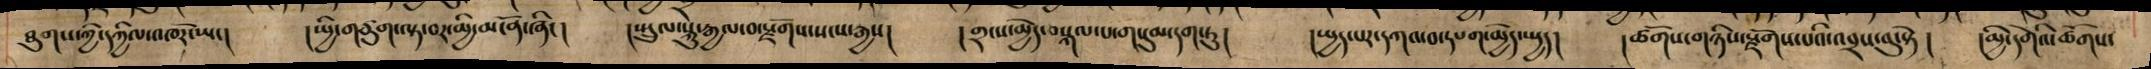ཐུགས་ཀྱི་དཀྱིལ་འཁོར་ཡང། །སྤྱི་གཙུག་ལྟ་བར་མྱི་མངོན་ཞིང། །སྤྲུལ་སྐུ་རྒྱལ་བ་སྫོགས་སངས་རྒྱས། །གྲངས་མྱེད་བསྐལ་པ་གསུམ་དག་ཏུ། །སྤྱད་པར་དཀའ་བ་དཔག་མྱེད་སྤྱད། །ཚོགས་གཉིས་སྫོགས་པའི་འབྲས་བུ་སྟེ། །མྱི་དགེའི་ཚོགས་
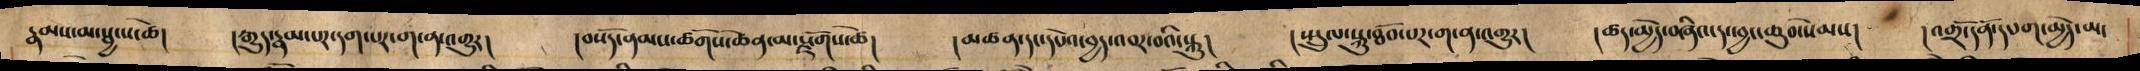རྣམས་མ་སྦྱངས་ཚེ། །རྒྱུད་རྣམ་པར་དག་པར་ག་ན་འགྱུར། །བསོད་ནམས་ཚོགས་ཆེན་མ་སྫོགས་ཚེ། །མཚན་དང་དཔེའ་བྱད་འབར་བའི་སྐུ། །སྤྲུལ་སྐུ་ཐོབ་པར་ག་ན་འགྱུར། །ཚད་མྱེད་བཞིའ་དང་བྱང་ཆུབ་སེམས། །འགྲོ་དོན་དཔག་མྱེད་མ་
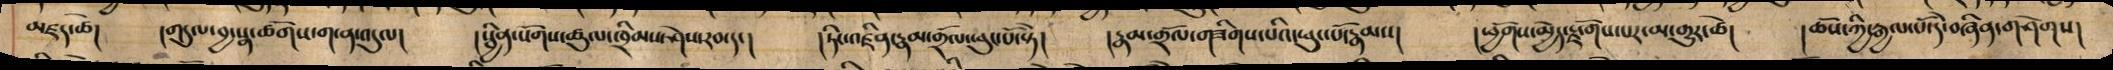མཛད་ཚེ། །གདུལ་བྱ་སྣ་ཚོགས་ག་ན་འདུལ། །སྦྱིན་སོགས་ཚུལ་ཁྲིམས་ཤེས་རབ་དང། །ཏིང་འཛིན་རྣམ་གྲོལ་ཕུང་པོ་སྟེ། །རྣམ་གྲོལ་གཟིགས་པའི་ཕུང་པོ་རྣམས། །ཕྱོགས་མྱེད་སྡོགས་པར་མ་གྱུར་ཚེ། །ཆོས་ཀྱི་རྒྱལ་པོ་དེ་བཞིན་གཤེགས།
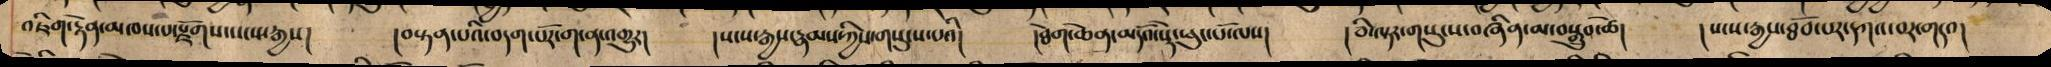འཇིག་རྟེན་མཁས་པ་སྫོགས་སངས་རྒྱས། །བསྟན་པའི་བདག་པོར་ག་ན་འགྱུར། །སངས་རྒྱས་རྣམས་ཀྱིས་གསུངས་པའི། །ཐེག་ཆེན་མདོའ་སྡེ་ཕུང་པོ་ལས། །ཅི་ལྟར་གསུངས་བཞཱིན་མ་བསྒྲུབ་ཚེ། །སངས་རྒྱས་ཐོབ་པར་དཀའ་བར་གདའ།
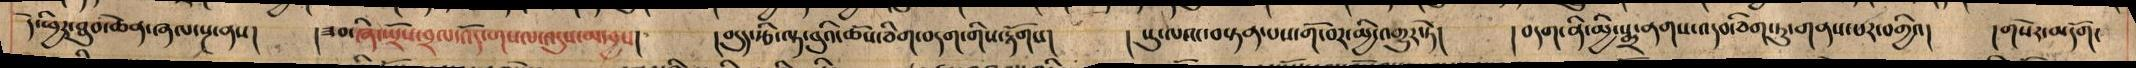དེ་ཕྱིར་ཐུབ་ཆེན་ཞལ་སྔ་ནས། །ཟབ་ཞི་སྤྲོས་བྲལ་འོད་གསལ་འདུས་མ་བྱས། །བདུད་རྩི་ལྟ་བུའི་ཆོས་ཅིག་བདག་གིས་རྟོགས། །སུ་ལའང་བསྟན་པས་གོ་བར་མྱི་འགྱུར་ཏེ། །བདག་ནི་མྱི་སྨྲ་ནགས་འདས་ཅིག་ཏུ་གནས་པར་བགྱིའ། །གསེར་མདོག་
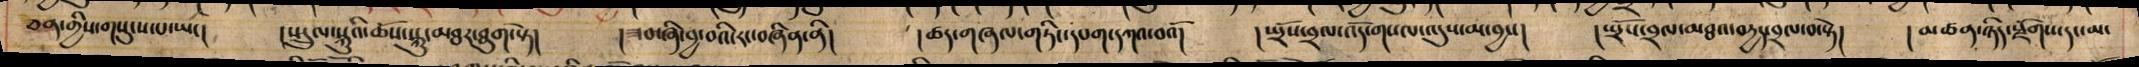ཅན་གྱིས་གསུངས་པ་ཡང། །སྤྲུལ་སྐུའི་ཆོས་སྐུ་མཐར་ཐུག་སྟེ། །ཟབ་ཞི་བྱ་བའི་རང་བཞིན་ནི། །ཚད་གཞལ་གཏིང་དཔག་དཀའ་བའོ། །སྤྲོས་བྲལ་འོད་གསལ་འདུས་མ་བྱས། །སྤྲོས་བྲལ་མཐའ་བརྱད་བྲལ་བ་སྟེ། །མཚན་ཉིད་སྫོགས་དང་མ་
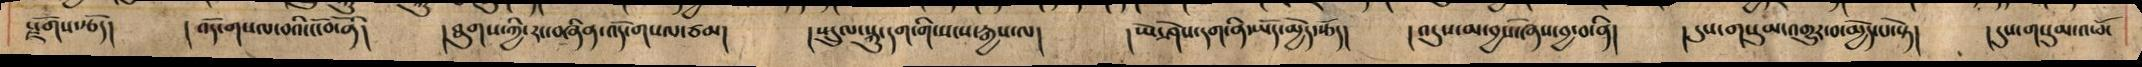སྫོགས་རྩོད། །འོད་གསལ་བའི་ངོ་བོ་ནི། །ཐུགས་ཀྱི་རང་བཞིན་འོད་གསལ་ཙམ། །སྤྲུལ་སྐུ་དག་གི་སངས་རྒྱས་ལ། །ཡེ་ཤེས་དག་ནི་ཡོད་མྱེད་རྩོད། །འདུས་མ་བྱས་ཞེས་བྱ་བ་ནི། །དུས་གསུམ་འགྱུར་བ་མྱེད་པ་སྟེ། །དུས་གསུམ་འཕོ་
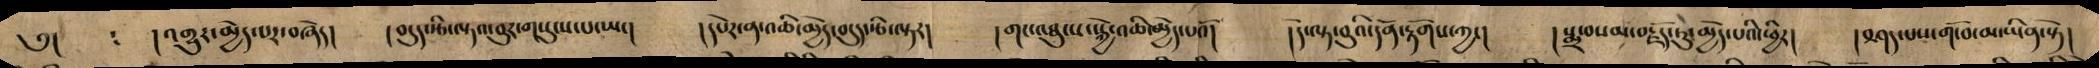༅། །འགྱུར་མྱེད་པར་བཞེད། །བདུད་རྩི་ལྟའ་བུར་གསུངས་པ་ཡང། །དཔེར་ན་འཆི་མྱེད་བདུད་རྩི་ལྟར། །གང་འཐུངས་སྐྱེ་འཆི་མྱེད་པའོ། །དེ་ལྟ་བུའི་དོན་རྟོགས་ཀྱང། །སྨྲ་བསམ་བརྗོད་ཏུ་མྱེད་པའི་ཕྱིར། །བཤད་པས་གོ་བ་མ་ཡིན་སྟེ།
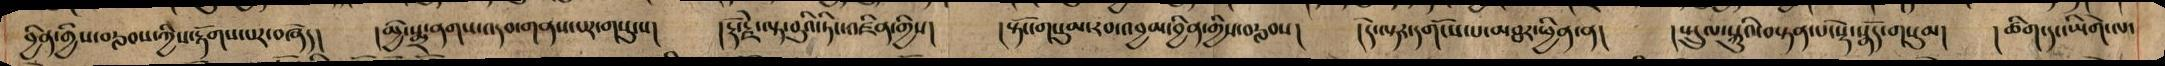བྱིན་གྱིས་བརླབས་ཀྱིས་རྟོགས་པར་བཞེད། །མྱི་སྨྲ་ནགས་འདབ་གནས་པར་གསུངས། །རྡོ་རྗེ་ལྟ་བུའི་ཏིང་འཛིན་གྱིས། །སྟོང་གསུམ་རབ་འབྱམ་བྱིན་གྱིས་བརླབས། །དེ་ལྟར་དགོངས་པ་མཐར་ཕྱིན་ན། །སྤྲུལ་སྐུའི་བསྟན་པ་སྡེ་སྣོད་གསུམ། །ཚིག་དང་ཡི་གེ་ལ་
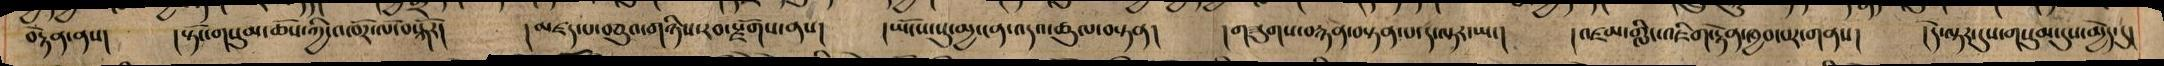བརྟེན་ནས། །སྟོང་གསུམ་ཆོས་ཀྱི་འཁོར་ལོ་བསྐོར། །མཛད་པ་བཅུའ་གཉིས་རབ་སྫོགས་ནས། །ཡོངས་སུ་མྱ་ངན་འདའ་ཚུལ་བསྟན། །གཟུགས་བརྙན་བསྟན་པ་ད་ལྟར་ཡང། །འཛམ་གླིང་འཇིག་རྟེན་ཁྱབ་པར་གནས། །དེ་ལྟར་དུས་གསུམ་དུས་མྱེད་དུ།
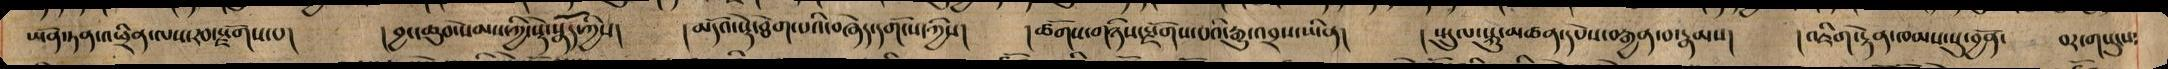ཡོན་ཏན་འཕྲིན་ལས་རབ་སྫོགས་པ། །བྱང་ཆུབ་སེམས་ཀྱི་སྡེ་སྣོད་ཀྱིས། །མདོའ་སྡེ་ཐེག་པའི་བཞེད་དགོངས་ཀྱིས། །ཚོགས་གཉིས་སྫོགས་པའི་རྒྱུ་འབྲས་ཡིན། །སྤྲུལ་སྐུ་མཚན་དཔེས་བརྒྱན་པ་རྣམས། །འཇིག་རྟེན་ཁམས་སུ་བྱོན་ བར་གསུངས་
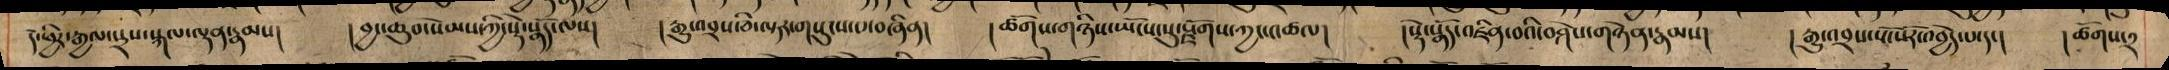དེ་ཕྱིར་རྒྱལ་སྲས་སྐལ་ལྡན་རྣམས། །བྱང་ཆུབ་སེམས་ཀྱི་སྡེ་སྣོད་ལས། །རྒྱུ་འབྲས་ཅི་ལྟར་གསུངས་པ་བཞིན། །ཚོགས་གཉིས་ཡོངས་སུ་སྫོགས་ཀྱང་འཚལ། །སྡེ་སྣོད་འཛིན་བའི་བཤེས་གཉེན་རྣམས། །རྒྱུ་འབྲས་སོ་སོར་འབྱེད་པ་དང། །ཚོགས་༢
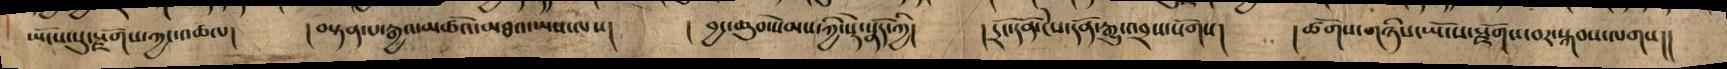ཡོངས་སུ་སྫོགས་ཀྱང་འཚལ། །བསྟན་པ་རྒྱའ་མཚོའ་མཐའ་ཡས་ལས། ། བྱང་ཆུབ་སེམས་ཀྱི་སྡེ་སྣོད་ཀྱི། །དྲང་དོན་ངེས་དོན་རྒྱུ་འབྲས་སོགས། །ཚོགས་གཉིས་ཡོངས་སྫོགས་བར་སྐབས་ལགས།།
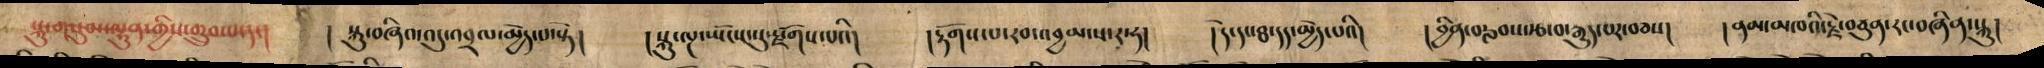སྐུ་གསུམ་ལྷུན་གྱིས་གྲུབ་པ་དང། ། སྐུ་བཞིའ་འདུ་འབྲལ་མྱེད་པ་སྟེ། །སྐུ་ལྔ་ཡོངས་སུ་སྫོགས་པའི། །རྟོགས་པ་རབ་འབྱམ་ས་ར་ཧ། །དེ་དང་ཐ་དད་མྱེད་པའི། །བྱིན་བརླབས་རྩ་བ་རྒྱུད་པར་བཅས། །ནམ་མཁའི་རྗེས་བཙུན་རང་བཞིན་སྐུ།
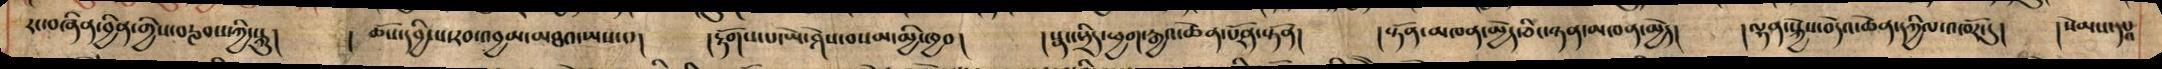རང་བཞིན་བྱིན་གྱིས་བརླབས་ཀྱི་སྐུ། ། ཆོས་དབྱིངས་རབ་འབྱམ་མཐའ་ཡས་པ། །རྟོགས་པ་ཡེ་ཤེས་བསམ་མྱི་ཁྱབ། །སྣང་སྲིད་ཕྱག་རྒྱའ་ཆེན་པོར་སྟོན། །སྟོན་མཁན་མྱེད་ཅིང་ཉན་མཁན་མྱེད། །ལྷན་སྐྱེས་བདེའ་ཆེན་དཀྱིལ་འཁོར་དུ། །སེམས་དཔ
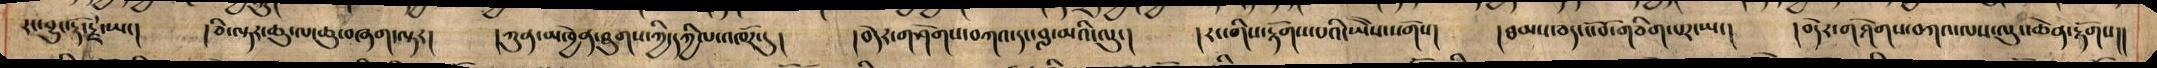རང་བྱུང་རྡོ་རྗེ་ཡང། །ཅི་ལྟར་ཆུ་ལ་ཆུ་བཞག་ལྟར། །ཀུན་མཁྱེན་ཐུགས་ཀྱི་དཀྱིལ་འཁོར་དུ། །བདེར་གཤེགས་བཀའ་དང་བླ་མའི་ལུང། །རང་གིས་རྟོགས་པའི་ཡཻ་སོགས། །ཐམས་ཅད་ངོ་བོ་གཅིག་པར་ཡང། །བདེར་གཤེགས་བཀའ་ལས་ལུང་ཆེན་རྟོགས།།
